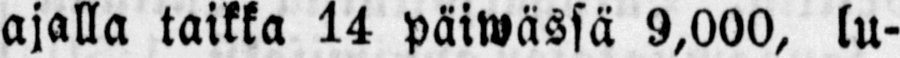ajalla taikka 14 päiwässä 9,000, lu-
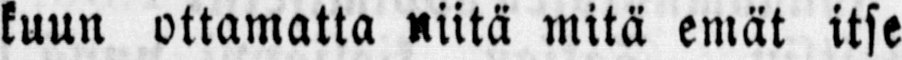kuun ottamatta niitä mitä emät itse
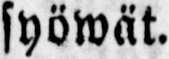syöwät.
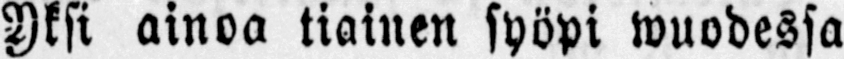Yksi ainoa tiainen syöpi wuodessa
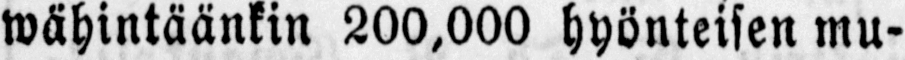wähintäänkin 200,000 hyönteisen mu-
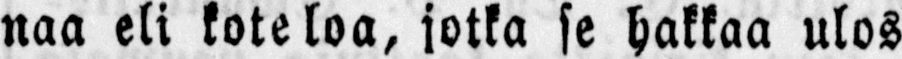naa eli koteloa, jotka se hakkaa ulos
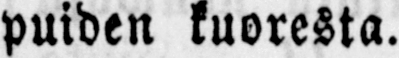puiden kuoresta.
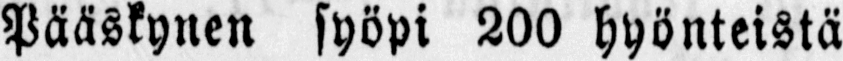Pääskynen syöpi 200 hyönteistä
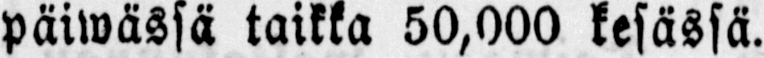päiwässä taikka 50,000 kesässä.
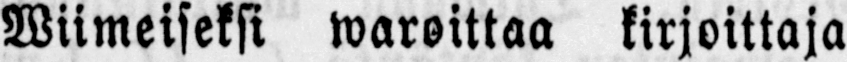Wiimeiseksi waroittaa kirjoittaja
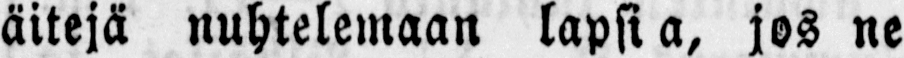äitejä nuhtelemaan lapsia, jos ne
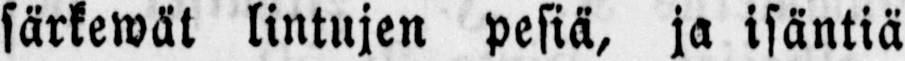särkewät lintujen pesiä, ja isäntiä
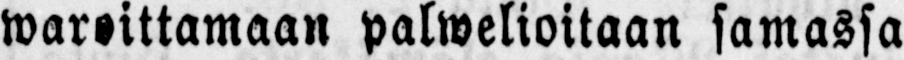waroittamaan palwelioitaan samassa
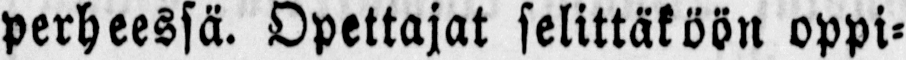perheessä. Opettajat selittäköön oppi-
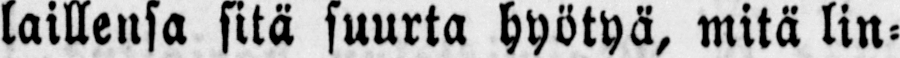laillensa sitä suurta hyötyä, mitä lin-
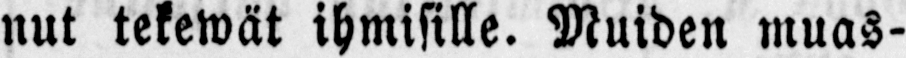nut tekewät ihmisille. Muiden muas-
